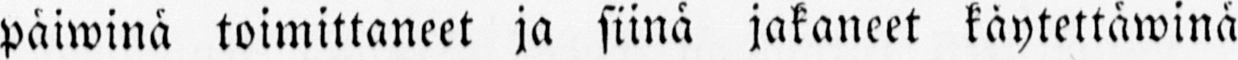päiwinä toimittaneet ja siinä jakaneet käytettäwinä
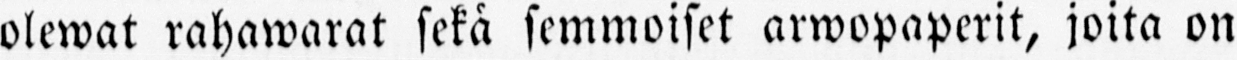olewat rahawarat sekä semmoiset arwopaperit, joita on
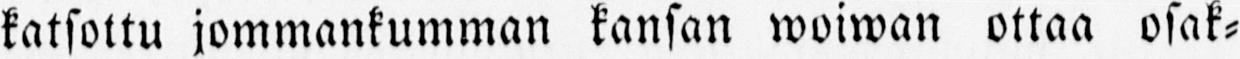katsottu jommankumman kansan woiwan ottaa osak-
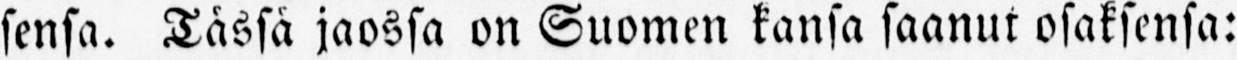sensa. Tässä jaossa on Suomen kansa saanut osaksensa:
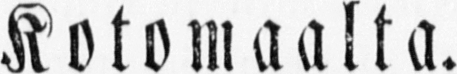Kotomaalta.
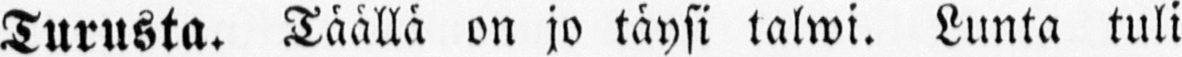Turusta. Täällä on jo täysi talwi. Lunta tuli
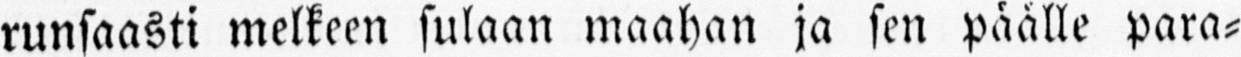runsaasti melkeen sulaan maahan ja sen päälle para-
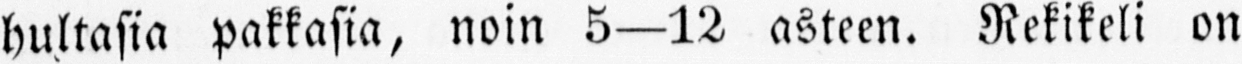hultasia pakkasia, noin 5—12 asteen. Rekikeli on
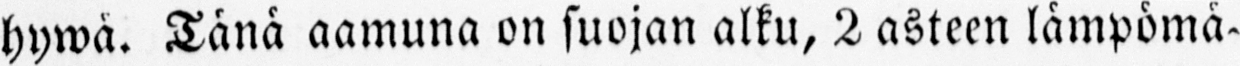hywä. Tänä aamuna on suojan alku, 2 asteen lämpömä-
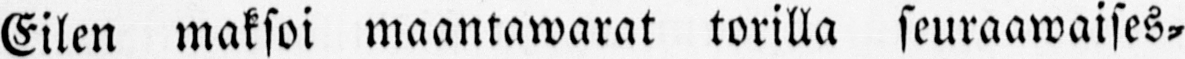Eilen maksoi maantawarat torilla seuraawaises-
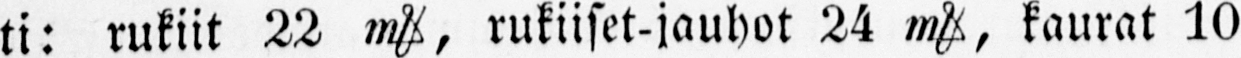ti: rukiit 22 m& rukiiset-jauhot 24 m&, kaurat 10
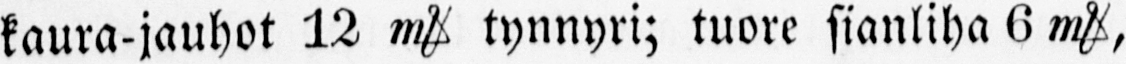m&, kaura-jauhot 12 m& tynnyri; tuore sianliha 6 m&,
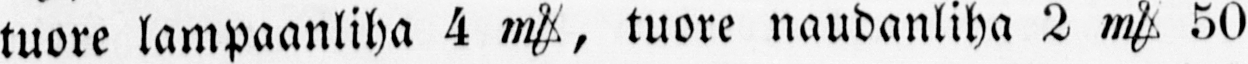tuore lampaanliha 4 m&, tuore naudanliha 2 m& 50
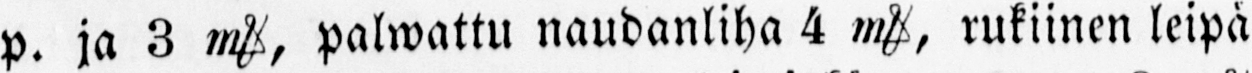p. ja 3 m&, palwattu naudanliha 4 m&, rukiinen leipä
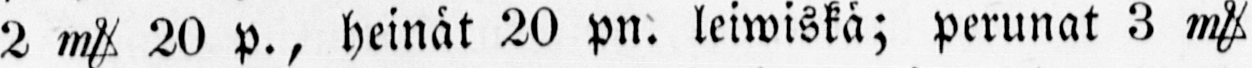2 m& 20 p., heinät 20 pn. leiwiskä; perunat 3 m&
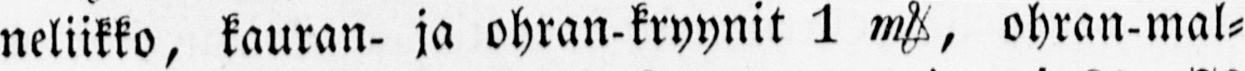neliikko, kauran- ja ohran-kryynit 1 m& ohran-mal-
